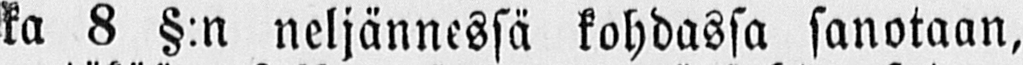ka 8 §:n neljännessä kohdassa sanotaan,
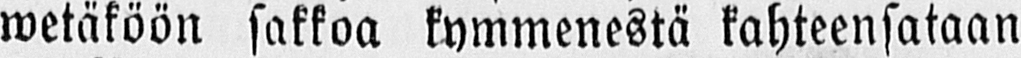wetäköön sakkoa kymmenestä kahteensataan
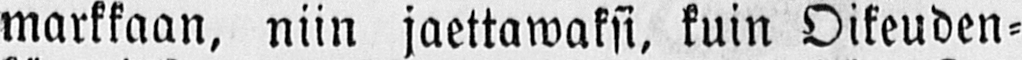markkaan, niin jaettawaksi, kuin Oikeuden-
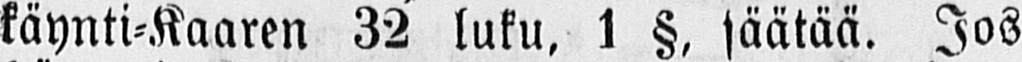käynti-Kaaren 32 luku, 1 §, säätää. Jos
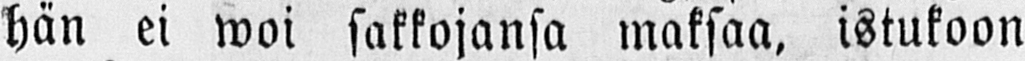hän ei woi sakkojansa maksaa, istukoon
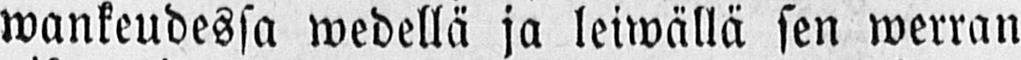wankeudessa wedellä ja leiwällä sen werran
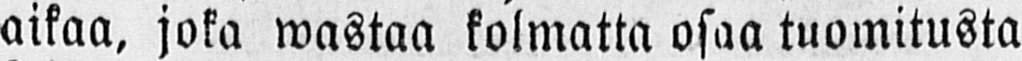aikaa, joka wastaa kolmatta osaa tuomitusta
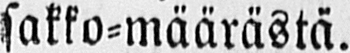sakko-määrästä.
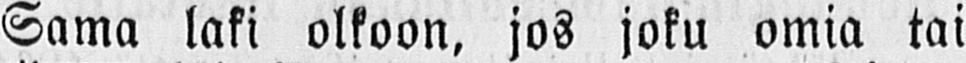Sama laki olkoon, jos joku omia tai
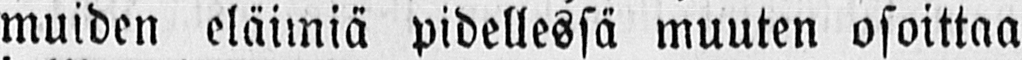muiden eläimiä pidellessä muuten osoittaa
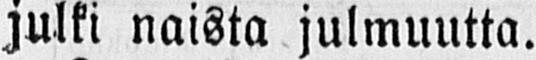julki naista julmuutta.
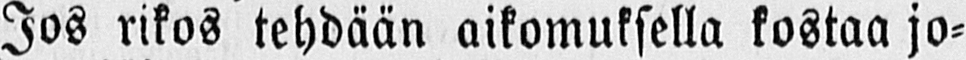Jos rikos tehdään aikomuksella kostaa jo-
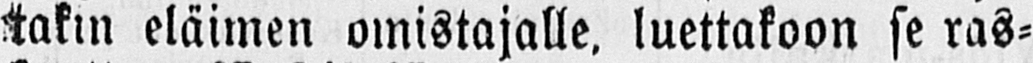takin eläimen omistajalle, luettakoon se ras-
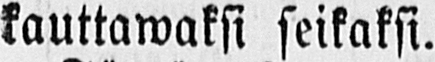kauttawaksi seikaksi.
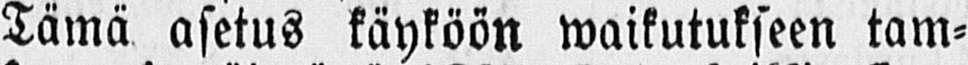Tämä asetus käyköön waikutukseen tam-
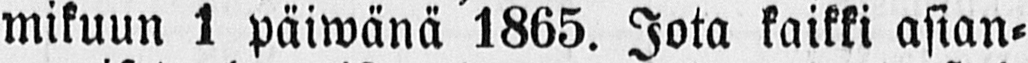mikuun 1 päiwänä 1865. Jota kaikki asian-
